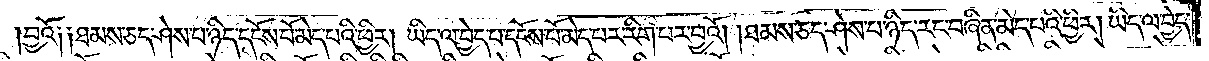བྱའོ༏ ༏ཐམས་ཅད་ཤེས་པ་ཉིད་དངོས་པོ་མེད་པའི་ཕྱིར། ཡིད་ལ་བྱེད་པ་དངོས་པོ་མེད་པར་རིག་པར་བྱའོ། །ཐམས་ཅད་ཤེས་པ་ཉིད་རང་བཞིན་མེད་པའི་ཕྱིར། ཡིད་ལ་བྱེད་
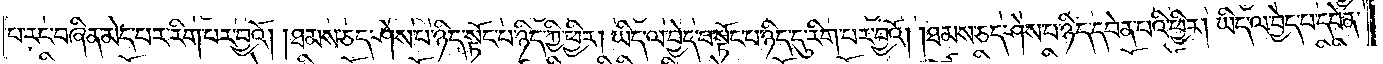པ་རང་བཞིན་མེད་པར་རིག་པར་བྱའོ། །ཐམས་ཅད་ཤེས་པ་ཉིད་སྟོང་པ་ཉིད་ཀྱི་ཕྱིར། ཡིད་ལ་བྱེད་པ་སྟོང་པ་ཉིད་དུ་རིག་པར་བྱའོ། །ཐམས་ཅད་ཤེས་པ་ཉིད་དབེན་པའི་ཕྱིར། ཡིད་ལ་བྱེད་པ་དབེན་
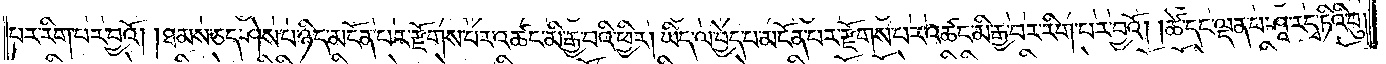པར་རིག་པར་བྱའོ། །ཐམས་ཅད་ཤེས་པ་ཉིད་མངོན་པར་རྫོགས་པར་འཚང་མི་རྒྱ་བའི་ཕྱིར། ཡིད་ལ་བྱེད་པ་མངོན་པར་རྫོགས་པར་འཚང་མི་རྒྱ་བར་རིག་པར་བྱའོ། །ཚེ་དང་ལྡན་པ་ཤཱ་ར་དྭ་ཏིའི་བུ།
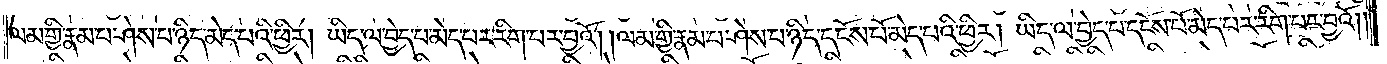ལམ་གྱི་རྣམ་པ་ཤེས་པ་ཉིད་མེད་པའི་ཕྱིར། ཡིད་ལ་བྱེད་པ་མེད་པར་རིག་པར་བྱའོ། །ལམ་གྱི་རྣམ་པ་ཤེས་པ་ཉིད་དངོས་པོ་མེད་པའི་ཕྱིར། ཡིད་ལ་བྱེད་པ་དངོས་པོ་མེད་པར་རིག་པར་བྱའོ། །
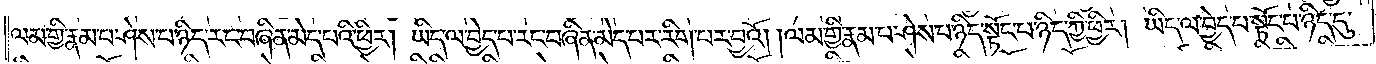ལམ་གྱི་རྣམ་པ་ཤེས་པ་ཉིད་རང་བཞིན་མེད་པའི་ཕྱིར། ཡིད་ལ་བྱེད་པ་རང་བཞིན་མེད་པར་རིག་པར་བྱའོ། །ལམ་གྱི་རྣམ་པ་ཤེས་པ་ཉིད་སྟོང་པ་ཉིད་ཀྱི་ཕྱིར། ཡིད་ལ་བྱེད་པ་སྟོང་པ་ཉིད་དུ་
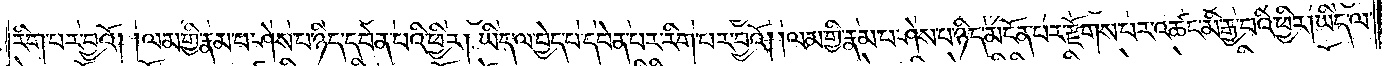རིག་པར་བྱའོ། །ལམ་གྱི་རྣམ་པ་ཤེས་པ་ཉིད་དབེན་པའི་ཕྱིར། ཡིད་ལ་བྱེད་པ་དབེན་པར་རིག་པར་བྱའོ། །ལམ་གྱི་རྣམ་པ་ཤེས་པ་ཉིད་མངོན་པར་རྫོགས་པར་འཚང་མི་རྒྱ་བའི་ཕྱིར། ཡིད་ལ་
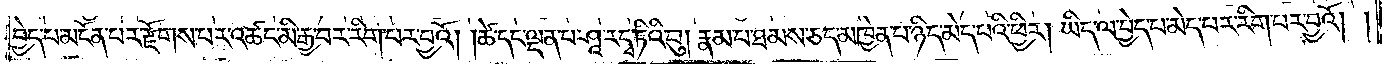བྱེད་པ་མངོན་པར་རྫོགས་པར་འཚང་མི་རྒྱ་བར་རིག་པར་བྱའོ། །ཚེ་དང་ལྡན་པ་ཤཱ་ར་དྭ་ཏིའི་བུ། རྣམ་པ་ཐམས་ཅད་མཁྱེན་པ་ཉིད་མེད་པའི་ཕྱིར། ཡིད་ལ་བྱེད་པ་མེད་པར་རིག་པར་བྱའོ། །
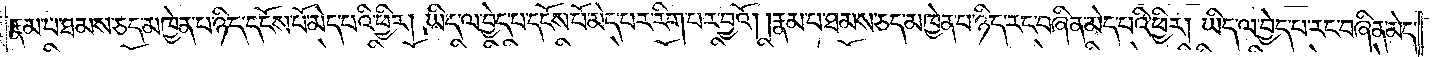རྣམ་པ་ཐམས་ཅད་མཁྱེན་པ་ཉིད་དངོས་པོ་མེད་པའི་ཕྱིར། ཡིད་ལ་བྱེད་པ་དངོས་པོ་མེད་པར་རིག་པར་བྱའོ། །རྣམ་པ་ཐམས་ཅད་མཁྱེན་པ་ཉིད་རང་བཞིན་མེད་པའི་ཕྱིར། ཡིད་ལ་བྱེད་པ་རང་བཞིན་མེད་
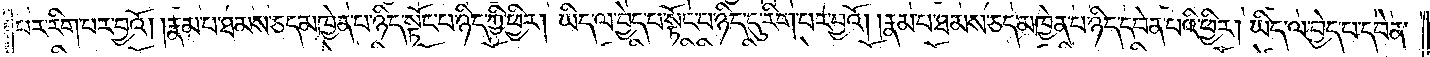པར་རིག་པར་བྱའོ། །རྣམ་པ་ཐམས་ཅད་མཁྱེན་པ་ཉིད་སྟོང་པ་ཉིད་ཀྱི་ཕྱིར། ཡིད་ལ་བྱེད་པ་སྟོང་པ་ཉིད་དུ་རིག་པར་བྱའོ། །རྣམ་པ་ཐམས་ཅད་མཁྱེན་པ་ཉིད་དབེན་པའི་ཕྱིར། ཡིད་ལ་བྱེད་པ་དབེན་
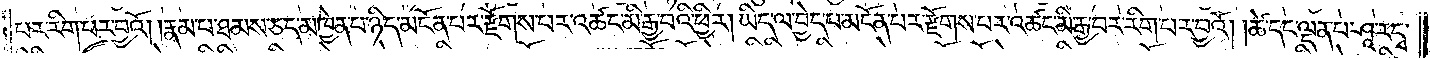པར་རིག་པར་བྱའོ། །རྣམ་པ་ཐམས་ཅད་མཁྱེན་པ་ཉིད་མངོན་པར་རྫོགས་པར་འཚང་མི་རྒྱ་བའི་ཕྱིར། ཡིད་ལ་བྱེད་པ་མངོན་པར་རྫོགས་པར་འཚང་མི་རྒྱ་བར་རིག་པར་བྱའོ། །ཚེ་དང་ལྡན་པ་ཤཱ་ར་དྭ་
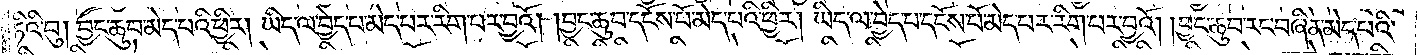ཏིའི་བུ། བྱང་ཆུབ་མེད་པའི་ཕྱིར། ཡིད་ལ་བྱེད་པ་མེད་པར་རིག་པར་བྱའོ། །བྱང་ཆུབ་དངོས་པོ་མེད་པའི་ཕྱིར། ཡིད་ལ་བྱེད་པ་དངོས་པོ་མེད་པར་རིག་པར་བྱའོ། །བྱང་ཆུབ་རང་བཞིན་མེད་པའི་
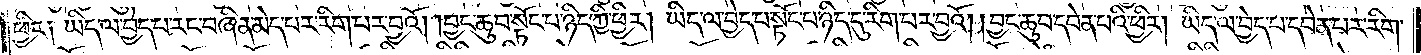ཕྱིར༏ ཡིད་ལ་བྱེད་པ་རང་བཞིན་མེད་པར་རིག་པར་བྱའོ། །བྱང་ཆུབ་སྟོང་པ་ཉིད་ཀྱི་ཕྱིར། ཡིད་ལ་བྱེད་པ་སྟོང་པ་ཉིད་དུ་རིག་པར་བྱའོ། །བྱང་ཆུབ་དབེན་པའི་ཕྱིར། ཡིད་ལ་བྱེད་པ་དབེན་པར་རིག་
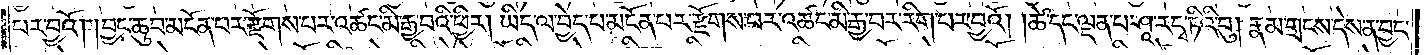པར་བྱའོ། །བྱང་ཆུབ་མངོན་པར་རྫོགས་པར་འཚང་མི་རྒྱ་བའི་ཕྱིར། ཡིད་ལ་བྱེད་པ་མངོན་པར་རྫོགས་པར་འཚང་མི་རྒྱ་བར་རིག་པར་བྱའོ། །ཚེ་དང་ལྡན་པ་ཤཱ་ར་དྭ་ཏིའི་བུ། རྣམ་གྲངས་དེས་ན་བྱང་
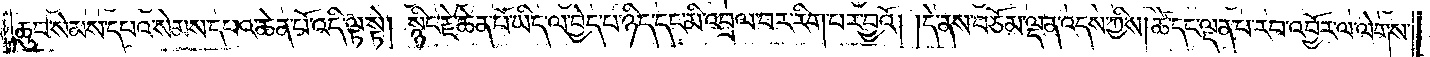ཆུབ་སེམས་དཔའ་སེམས་དཔའ་ཆེན་པོ་འདི་ལྟ་སྟེ། སྙིང་རྗེ་ཆེན་པོ་ཡིད་ལ་བྱེད་པ་ཉིད་དང་མི་འབྲལ་བར་རིག་པར་བྱའོ། །དེ་ནས་བཅོམ་ལྡན་འདས་ཀྱིས། ཚེ་དང་ལྡན་པ་རབ་འབྱོར་ལ་ལེགས་
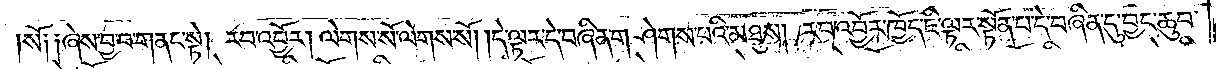སོ༏ ༏ཞེས་བྱ་བ་གནང་སྟེ། རབ་འབྱོར། ལེགས་སོ་ལེགས་སོ། །དེ་ལྟར་དེ་བཞིན་གཤེགས་པའི་མཐུས། རབ་འབྱོར་ཁྱོད་ཇི་ལྟར་སྟོན་པ་དེ་བཞིན་དུ་བྱང་ཆུབ་
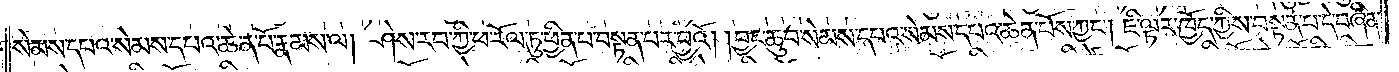སེམས་དཔའ་སེམས་དཔའ་ཆེན་པོ་རྣམས་ལ། ཤེས་རབ་ཀྱི་ཕ་རོལ་ཏུ་ཕྱིན་པ་བསྟན་པར་བྱའོ། །བྱང་ཆུབ་སེམས་དཔའ་སེམས་དཔའ་ཆེན་པོས་ཀྱང༌། ཇི་ལྟར་ཁྱོད་ཀྱིས་བསྟན་པ་དེ་བཞིན་
